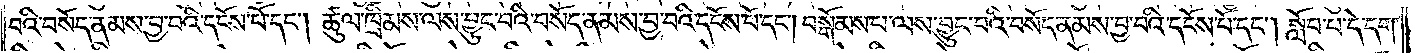བའི་བསོད་ནམས་བྱ་བའི་དངོས་པོ་དང༌། ཚུལ་ཁྲིམས་ལས་བྱུང་བའི་བསོད་ནམས་བྱ་བའི་དངོས་པོ་དང༌། བསྒོམས་པ་ལས་བྱུང་བའི་བསོད་ནམས་བྱ་བའི་དངོས་པོ་དང༌། སློབ་པ་དེ་དག་
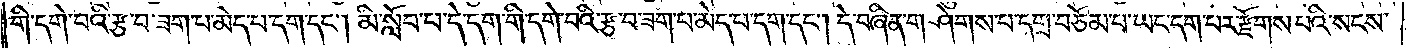གི་དགེ་བའི་རྩ་བ་ཟག་པ་མེད་པ་དག་དང༌། མི་སློབ་པ་དེ་དག་གི་དགེ་བའི་རྩ་བ་ཟག་པ་མེད་པ་དག་དང༌། དེ་བཞིན་གཤེགས་པ་དགྲ་བཅོམ་པ་ཡང་དག་པར་རྫོགས་པའི་སངས་
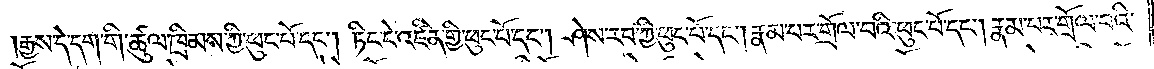རྒྱས་དེ་དག་གི་ཚུལ་ཁྲིམས་ཀྱི་ཕུང་པོ་དང༌། ཏིང་ངེ་འཛིན་གྱི་ཕུང་པོ་དང༌། ཤེས་རབ་ཀྱི་ཕུང་པོ་དང༌། རྣམ་པར་གྲོལ་བའི་ཕུང་པོ་དང༌། རྣམ་པར་གྲོལ་བའི་
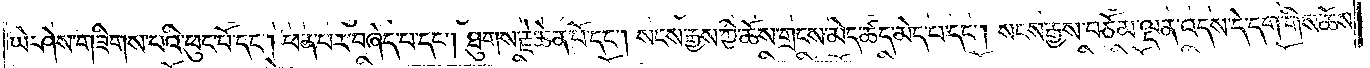ཡེ་ཤེས་གཟིགས་པའི་ཕུང་པོ་དང༌། ཕན་པར་བཞེད་པ་དང༌། ཐུགས་རྗེ་ཆེན་པོ་དང༌། སངས་རྒྱས་ཀྱི་ཆོས་གྲངས་མེད་ཚད་མེད་པ་དང༌། སངས་རྒྱས་བཅོམ་ལྡན་འདས་དེ་དག་གིས་ཆོས་
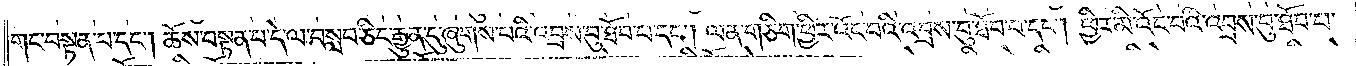གང་བསྟན་པ་དང༌། ཆོས་བསྟན་པ་དེ་ལ་བསླབ་ཅིང་རྒྱུན་དུ་ཞུགས་པའི་འབྲས་བུ་ཐོབ་པ་དང༌། ལན་གཅིག་ཕྱིར་འོང་བའི་འབྲས་བུ་ཐོབ་པ་དང༌། ཕྱིར་མི་འོང་བའི་འབྲས་བུ་ཐོབ་པ་
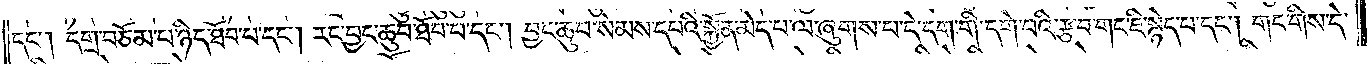དང༌། དགྲ་བཅོམ་པ་ཉིད་ཐོབ་པ་དང༌། རང་བྱང་ཆུབ་ཐོབ་པ་དང༌། བྱང་ཆུབ་སེམས་དཔའི་སྐྱོན་མེད་པ་ལ་ཞུགས་པ་དེ་དག་གིས་དགེ་བའི་རྩ་བ་གང་ཇི་སྙེད་པ་དང༌། གང་གིས་དེ་
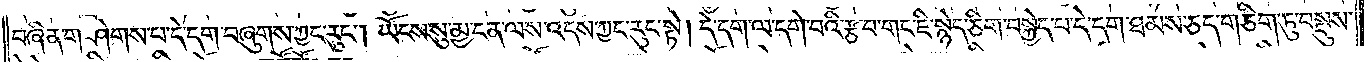བཞིན་གཤེགས་པ་དེ་དག་བཞུགས་ཀྱང་རུང༌། ཡོངས་སུ་མྱ་ངན་ལས་འདས་ཀྱང་རུང་སྟེ། དེ་དག་ལ་དགེ་བའི་རྩ་བ་གང་ཇི་སྙེད་ཅིག་བསྐྱེད་པ་དེ་དག་ཐམས་ཅད་གཅིག་ཏུ་བསྡུས་
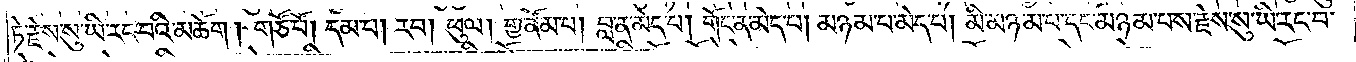ཏེ་རྗེས་སུ་ཡི་རང་བའི་མཆོག། གཙོ་བོ། དམ་པ། རབ། ཕུལ། གྱ་ནོམ་པ། བླ་ན་མེད་པ། གོང་ན་མེད་པ། མཉམ་པ་མེད་པ། མི་མཉམ་པ་དང་མཉམ་པས་རྗེས་སུ་ཡི་རང་བ་
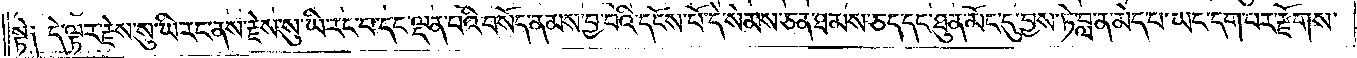སྟེ༑ དེ་ལྟར་རྗེས་སུ་ཡི་རང་ནས་རྗེས་སུ་ཡི་རང་བ་དང་ལྡན་པའི་བསོད་ནམས་བྱ་བའི་དངོས་པོ་དེས་སེམས་ཅན་ཐམས་ཅད་དང་ཐུན་མོང་དུ་བྱས་ཏེ་བླ་ན་མེད་པ་ཡང་དག་པར་རྫོགས་
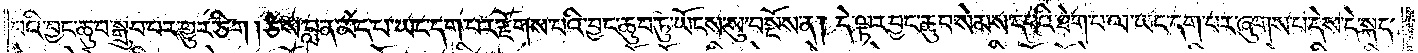པའི་བྱང་ཆུབ་གྲུབ་པར་གྱུར་ཅིག། ཅེས་བླ་ན་མེད་པ་ཡང་དག་པར་རྫོགས་པའི་བྱང་ཆུབ་ཏུ་ཡོངས་སུ་བསྔོས་ན། དེ་ལྟར་བྱང་ཆུབ་སེམས་དཔའ་ཐེག་པ་ལ་ཡང་དག་པར་ཞུགས་པ་དེས་དེ་སྐད་
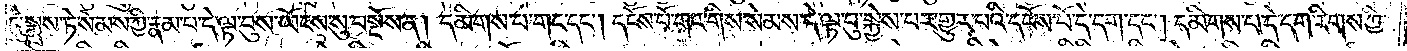དུ་སྨྲས་ཏེ་སེམས་ཀྱི་རྣམ་པ་དེ་ལྟ་བུས་ཡོངས་སུ་བསྔོས་ན། དམིགས་པ་གང་དང༌། དངོས་པོ་གང་གིས་སེམས་དེ་ལྟ་བུ་སྐྱེས་པར་གྱུར་པའི་དངོས་པོ་དེ་དག་དང༌། དམིགས་པ་དེ་དག་རིགས་ཀྱི་
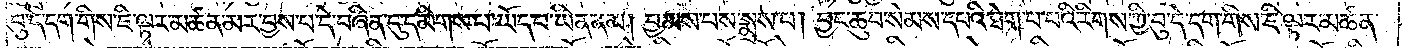བུ་དེ་དག་གིས་ཇི་ལྟར་མཚན་མར་བྱས་པ་དེ་བཞིན་དུ་དམིགས་པ་ཡོད་པ་ཡིན་ནམ། བྱམས་པས་སྨྲས་པ། བྱང་ཆུབ་སེམས་དཔའི་ཐེག་པ་པའི་རིགས་ཀྱི་བུ་དེ་དག་གིས་ཇི་ལྟར་མཚན་
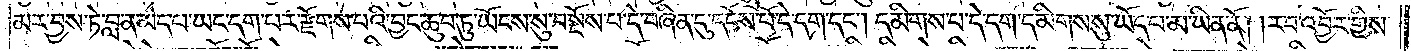མར་བྱས་ཏེ་བླ་ན་མེད་པ་ཡང་དག་པར་རྫོགས་པའི་བྱང་ཆུབ་ཏུ་ཡོངས་སུ་བསྔོས་པ་དེ་བཞིན་དུ་དངོས་པོ་དེ་དག་དང༌། དམིགས་པ་དེ་དག་དམིགས་སུ་ཡོད་པ་མ་ཡིན་ནོ། །རབ་འབྱོར་གྱིས་
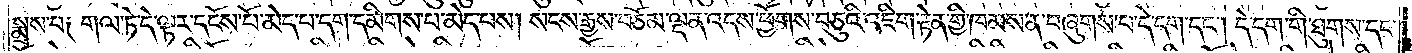སྨྲས་པ༑ གལ་ཏེ་དེ་ལྟར་དངོས་པོ་མེད་པ་དག་དམིགས་པ་མེད་པས། སངས་རྒྱས་བཅོམ་ལྡན་འདས་ཕྱོགས་བཅུའི་འཇིག་རྟེན་གྱི་ཁམས་ན་བཞུགས་པ་དེ་དག་དང༌། དེ་དག་གི་ཐུགས་དང་
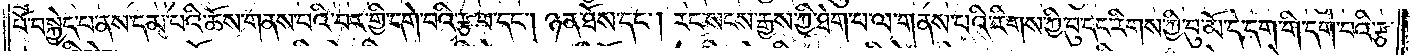པོ་བསྐྱེད་པ་ནས་དམ་པའི་ཆོས་གནས་པའི་བར་གྱི་དགེ་བའི་རྩ་བ་དང༌། ཉན་ཐོས་དང༌། རང་སངས་རྒྱས་ཀྱི་ཐེག་པ་ལ་གནས་པའི་རིགས་ཀྱི་བུ་དང་རིགས་ཀྱི་བུ་མོ་དེ་དག་གི་དགེ་བའི་རྩ་
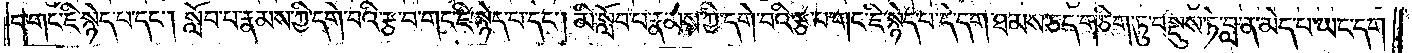བ་གང་ཇི་སྙེད་པ་དང༌། སློབ་པ་རྣམས་ཀྱི་དགེ་བའི་རྩ་བ་གང་ཇི་སྙེད་པ་དང༌། མི་སློབ་བ་རྣམས་ཀྱི་དགེ་བའི་རྩ་བ་གང་ཇི་སྙེད་པ་དེ་དག་ཐམས་ཅད་གཅིག་ཏུ་བསྡུས་ཏེ་བླ་ན་མེད་པ་ཡང་དག་
